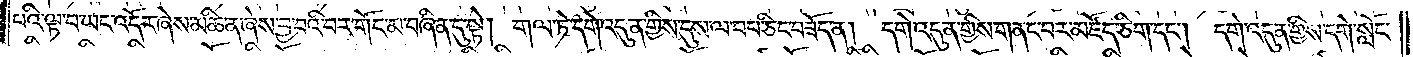པའི་ལྟ་བ་ཡང་འདོར་ཞེས་མཆི་ན་ཞེས་བྱ་བའི་བར་གོང་མ་བཞིན་དུ་སྟེ། གལ་ཏེ་དགེ་འདུན་གྱིས་དུས་ལ་བབ་ཅིང་བཟོད་ན། དགེ་འདུན་གྱིས་གནང་བར་མཛོད་ཅིག་དང༌། དགེ་འདུན་གྱིས་དགེ་སློང་
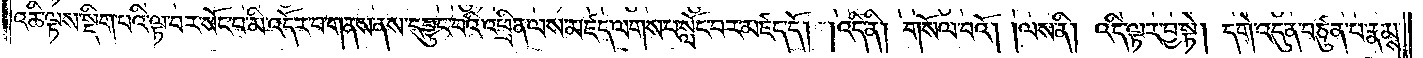འཆི་ལྟས་སྡིག་པའི་ལྟ་བར་སོང་བ་མི་འདོར་བ་གནས་ནས་དབྱུང་བའི་འཕྲིན་ལས་མཛད་ལགས་པ་སློང་བར་མཛད་དོ། །འདི་ནི། གསོལ་བའོ། །ལས་ནི། འདི་ལྟར་བྱ་སྟེ། དགེ་འདུན་བཙུན་པ་རྣམས་
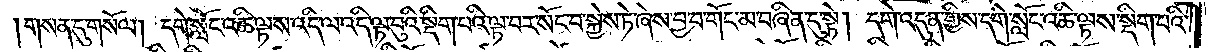གསན་དུ་གསོལ། དགེ་སློང་འཆི་ལྟས་འདི་ལ་འདི་ལྟ་བུའི་སྡིག་པའི་ལྟ་བར་སོང་བ་སྐྱེས་ཏེ་ཞེས་བྱ་བ་གོང་མ་བཞིན་དུ་སྟེ། དགེ་འདུན་གྱིས་དགེ་སློང་འཆི་ལྟས་སྡིག་པའི་
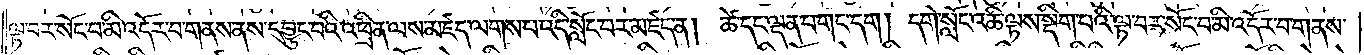ལྟ་བར་སོང་བ་མི་འདོར་བ་གནས་ནས་དབྱུང་བའི་འཕྲིན་ལས་མཛད་ལགས་པ་འདི་སློང་བར་མཛད་ན། ཚེ་དང་ལྡན་པ་གང་དག། དགེ་སློང་འཆི་ལྟས་སྡིག་པའི་ལྟ་བར་སོང་བ་མི་འདོར་བ་གནས་
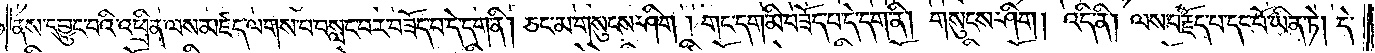ནས་དབྱུང་བའི་འཕྲིན་ལས་མཛད་ལགས་པ་བསླང་བར་བཟོད་པ་དེ་དག་ནི། ཅང་མ་གསུངས་ཤིག །གང་དག་མི་བཟོད་པ་དེ་དག་ནི། གསུངས་ཤིག། འདི་ནི། ལས་བརྗོད་པ་དང་པོ་ཡིན་ཏེ། དེ་
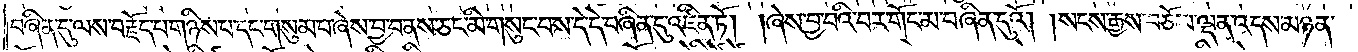བཞིན་དུ་ལས་བརྗོད་པ་གཉིས་པ་དང་གསུམ་པ་ཞེས་བྱ་བ་ནས་ཅང་མི་གསུང་པས་དེ་དེ་བཞིན་དུ་འཛིན་ཏོ། །ཞེས་བྱ་བའི་བར་གོང་མ་བཞིན་དུའོ།    །སངས་རྒྱས་བཅོམ་ལྡན་འདས་མཉན་
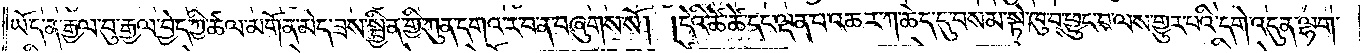ཡོད་ན་རྒྱལ་བུ་རྒྱལ་བྱེད་ཀྱི་ཚལ་མགོན་མེད་ཟས་སྦྱིན་གྱི་ཀུན་དགའ་ར་བ་ན་བཞུགས་སོ། །དེའི་ཚེ་ཚེ་དང་ལྡན་པ་འཆར་ཀ་ཆེད་དུ་བསམ་སྟེ་ཁུ་བ་ཕྱུང་བ་ལས་གྱུར་པའི་དགེ་འདུན་ལྷག་
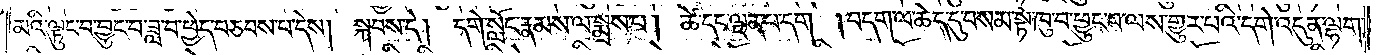མའི་ལྟུང་བ་བྱུང་བ་ཟླ་བ་ཕྱེད་བཅབས་པ་དེས། སྐབས་དེ། དགེ་སློང་རྣམས་ལ་སྨྲས་པ། ཚེ་དང་ལྡན་པ་དག །བདག་ལ་ཆེད་དུ་བསམ་སྟེ་ཁུ་བ་ཕྱུང་བ་ལས་གྱུར་པའི་དགེ་འདུན་ལྷག་
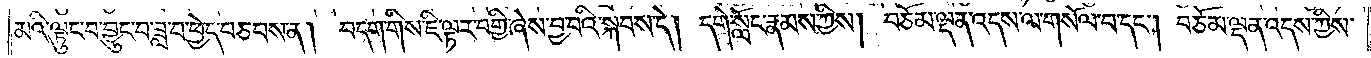མའི་ལྟུང་བ་བྱུང་བ་ཟླ་བ་ཕྱེད་བཅབས་ན། བདག་གིས་ཇི་ལྟར་བགྱི་ཞེས་བྱ་བའི་སྐབས་དེ། དགེ་སློང་རྣམས་ཀྱིས། བཅོམ་ལྡན་འདས་ལ་གསོལ་བ་དང༌། བཅོམ་ལྡན་འདས་ཀྱིས་
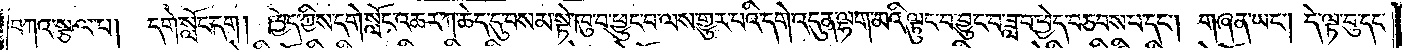བཀའ་སྩལ་པ། དགེ་སློང་དག། ཁྱེད་ཀྱིས་དགེ་སློང་འཆར་ཀ་ཆེད་དུ་བསམ་སྟེ་ཁུ་བ་ཕྱུང་བ་ལས་གྱུར་པའི་དགེ་འདུན་ལྷག་མའི་ལྟུང་བ་བྱུང་བ་ཟླ་བ་ཕྱེད་བཅབས་པ་དང༌། གཞན་ཡང༌། དེ་ལྟ་བུ་དང་
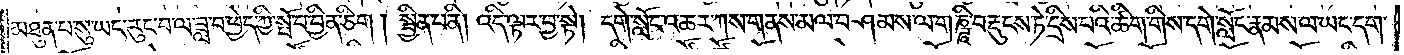མཐུན་པ་སུ་ཡང་རུང་བ་ལ་ཟླ་བ་ཕྱེད་ཀྱི་སྤོ་བ་བྱིན་ཅིག །སྦྱིན་པ་ནི། འདི་ལྟར་བྱ་སྟེ། དགེ་སློང་འཆར་ཀས་གནས་མལ་བཤམས་ལ་གཎྜཱི་བརྡུངས་ཏེ་དྲིས་པའི་ཚིག་གིས་དགེ་སློང་རྣམས་ལ་ཡང་དག་
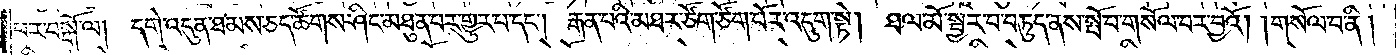པར་བསྒོ་ལ། དགེ་འདུན་ཐམས་ཅད་ཚོགས་ཤིང་མཐུན་པར་གྱུར་པ་དང༌། རྒན་པའི་མཐར་ཙོག་ཙོག་པོར་འདུག་སྟེ། ཐལ་མོ་སྦྱར་བ་བཏུད་ནས་སྤོ་བ་གསོལ་བར་བྱའོ། །གསོལ་བ་ནི།
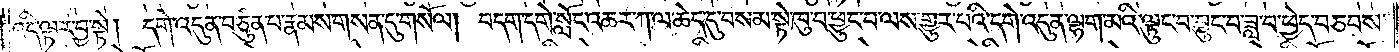འདི་ལྟར་བྱ་སྟེ། དགེ་འདུན་བཙུན་པ་རྣམས་གསན་དུ་གསོལ། བདག་དགེ་སློང་འཆར་ཀ་ལ་ཆེད་དུ་བསམ་སྟེ་ཁུ་བ་ཕྱུང་བ་ལས་གྱུར་པའི་དགེ་འདུན་ལྷག་མའི་ལྟུང་བ་བྱུང་བ་ཟླ་བ་ཕྱེད་བཅབས་
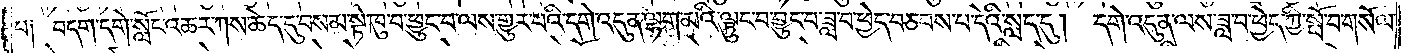པ༑ བདག་དགེ་སློང་འཆར་ཀས་ཆེད་དུ་བསམ་སྟེ་ཁུ་བ་ཕྱུང་བ་ལས་གྱུར་པའི་དགེ་འདུན་ལྷག་མའི་ལྟུང་བ་བྱུང་བ་ཟླ་བ་ཕྱེད་བཅབས་པ་དེའི་སླད་དུ། དགེ་འདུན་ལས་ཟླ་བ་ཕྱེད་ཀྱི་སྤོ་བ་གསོལ་
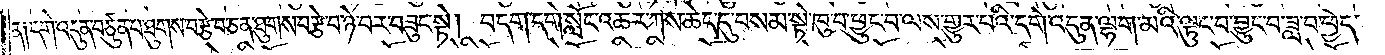ན། དགེ་འདུན་བཙུན་པ་ཐུགས་བརྩེ་བ་ཅན་ཐུགས་བརྩེ་བ་ཉེ་བར་བཟུང་སྟེ། བདག་དགེ་སློང་འཆར་ཀས་ཆེད་དུ་བསམ་སྟེ་ཁུ་བ་ཕྱུང་བ་ལས་གྱུར་བའི་དགེ་འདུན་ལྷག་མའི་ལྟུང་བ་བྱུང་བ་ཟླ་བ་ཕྱེད་
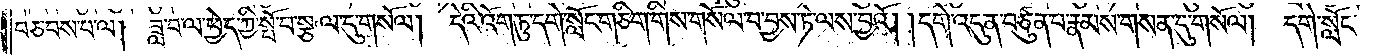བཅབས་པ་ལ། ཟླ་བ་ལ་ཕྱེད་ཀྱི་སྤོ་བ་སྩལ་དུ་གསོལ། དེའི་འོག་ཏུ་དགེ་སློང་གཅིག་གིས་གསོལ་བ་བྱས་ཏེ་ལས་བྱའོ། །དགེ་འདུན་བཙུན་པ་རྣམས་གསན་དུ་གསོལ། དགེ་སློང་
